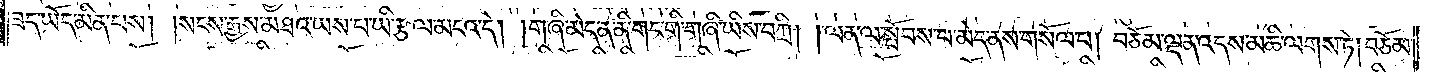ཟད་ཡོད་མིན་པས། །སངས་རྒྱས་མཐའ་ཡས་པ་ཡི་རྩལ་མངའ་དེ། །གཞི་མེད་ན་ནི་གང་གི་གཞི་ཡིས་བཀྲི། །ལན་ལ་སྤོབས་པ་མེད་ནས་གསོལ་པ། བཅོམ་ལྡན་འདས་མཆི་ལགས་ཏེ། བཅོམ་
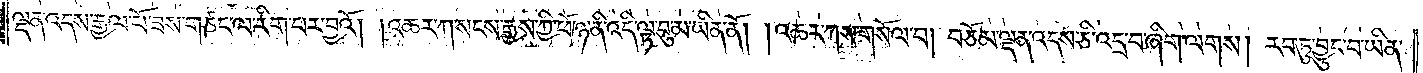ལྡན་འདས་རྒྱལ་པོ་ཟས་གཙང་ལ་རིག་པར་བྱའོ། །འཆར་ཀ་སངས་རྒྱས་ཀྱི་ཕོ་ཉ་ནི་འདི་ལྟ་བུ་མ་ཡིན་ནོ། །འཆར་ཀས་གསོལ་པ། བཅོམ་ལྡན་འདས་ཅི་འདྲ་བ་ཞིག་ལགས། རབ་ཏུ་བྱུང་བ་ཡིན་
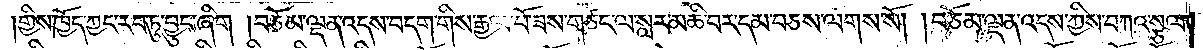གྱིས་ཁྱོད་ཀྱང་རབ་ཏུ་བྱུང་ཞིག །བཅོམ་ལྡན་འདས་བདག་གིས་རྒྱལ་པོ་ཟས་གཙང་ལ་སླར་མཆི་བར་དམ་བཅས་ལགས་སོ། །བཅོམ་ལྡན་འདས་ཀྱིས་བཀའ་སྩལ་
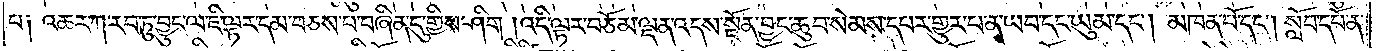པ༑ འཆར་ཀ་རབ་ཏུ་བྱུང་ལ་ཇི་ལྟར་དམ་བཅས་པ་བཞིན་དུ་གྱིས་ཤིག །འདི་ལྟར་བཅོམ་ལྡན་འདས་སྔོན་བྱང་ཆུབ་སེམས་དཔར་གྱུར་པ་ན་ཡབ་དང་ཡུམ་དང༌། མཁན་པོ་དང༌། སློབ་དཔོན་
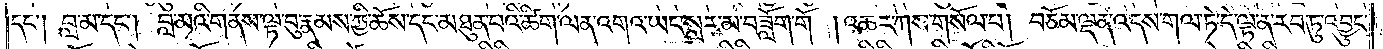དང༌། བླ་མ་དང༌། བླ་མའི་གནས་ལྟ་བུ་རྣམས་ཀྱི་ཆོས་དང་མཐུན་པའི་ཚིག་ལན་འགའ་ཡང་སླར་མ་བཟློག་གོ །འཆར་ཀས་གསོལ་པ། བཅོམ་ལྡན་འདས་གལ་ཏེ་དེ་ལྟ་ན་རབ་ཏུ་འབྱུང་
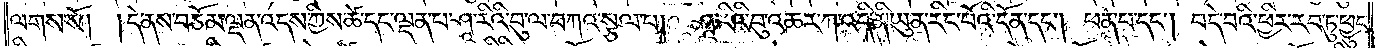ལགས་སོ། །དེ་ནས་བཅོམ་ལྡན་འདས་ཀྱིས་ཚེ་དང་ལྡན་པ་ཤཱ་རིའི་བུ་ལ་བཀའ་སྩལ་པ། ཤཱ་རིའི་བུ་འཆར་ཀ་འདི་ནི་ཡུན་རིང་པོའི་དོན་དང༌། ཕན་པ་དང༌། བདེ་བའི་ཕྱིར་རབ་ཏུ་ཕྱུང་
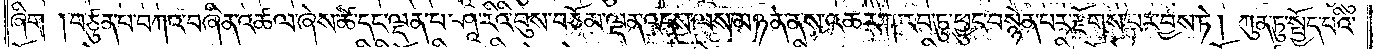ཞིག །བཙུན་པ་བཀའ་བཞིན་འཚལ་ཞེས་ཚེ་དང་ལྡན་པ་ཤཱ་རིའི་བུས་བཅོམ་ལྡན་འདས་ལས་མཉན་ནས་འཆར་ཀ་རབ་ཏུ་ཕྱུང་བསྙེན་པར་རྫོགས་པར་བྱས་ཏེ། ཀུན་ཏུ་སྤྱོད་པའི་
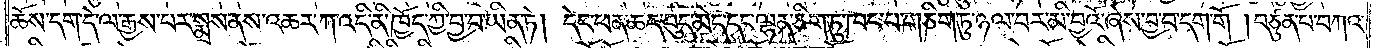ཆོས་དག་དེ་ལ་རྒྱས་པར་སྨྲས་ནས་འཆར་ཀ་འདི་ནི་ཁྱོད་ཀྱི་བྱ་བ་ཡིན་ཏེ། དེང་ཕན་ཆད་བུད་མེད་དང་ལྷན་ཅིག་ཏུ་ཁང་པ་གཅིག་ཏུ་ཉལ་བར་མི་བྱའོ་ཞེས་བྱ་བ་དག་གོ །བཙུན་པ་བཀའ་
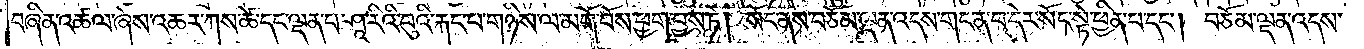བཞིན་འཚལ་ཞེས་འཆར་ཀས་ཚེ་དང་ལྡན་པ་ཤཱ་རིའི་བུའི་རྐང་པ་གཉིས་ལ་མགོ་བོས་ཕྱག་བྱས་ཏེ། སོང་ནས་བཅོམ་ལྡན་འདས་གང་ན་བ་དེར་སོང་སྟེ་ཕྱིན་པ་དང༌། བཅོམ་ལྡན་འདས་
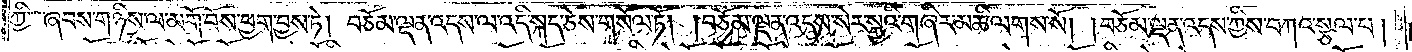ཀྱི་ཞབས་གཉིས་ལ་མགོ་བོས་ཕྱག་བྱས་ཏེ། བཅོམ་ལྡན་འདས་ལ་འདི་སྐད་ཅེས་གསོལ་ཏོ། །བཅོམ་ལྡན་འདས་སེར་སྐྱའི་གཞིར་མཆི་ལགས་སོ། །བཅོམ་ལྡན་འདས་ཀྱིས་བཀའ་སྩལ་པ།
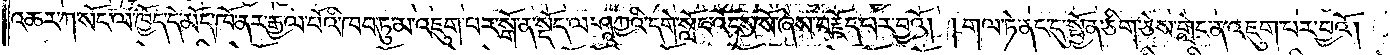འཆར་ཀ་སོང་ལ་ཁྱོད་དེ་མོད་ཁོ་ནར་རྒྱལ་པོའི་ཁབ་ཏུ་མ་འཇུག་པར་སྒོ་ན་སྡོད་ལ་ཤཱཀྱའི་དགེ་སློང་འོངས་སོ་ཞེས་བརྗོད་པར་བྱའོ། །གལ་ཏེ་ནང་དུ་སྤྱོན་ཅིག་ཅེས་གླེང་ན་འཇུག་པར་བྱའོ། །
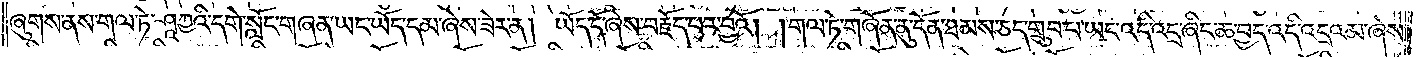ཞུགས་ནས་གལ་ཏེ་ཤཱཀྱའི་དགེ་སློང་གཞན་ཡང་ཡོད་དམ་ཞེས་ཟེར་ན། ཡོད་དོ་ཞེས་བརྗོད་པར་བྱའོ། །གལ་ཏེ་གཞོན་ནུ་དོན་ཐམས་ཅད་གྲུབ་པ་ཡང་འདི་འདྲ་ཞིང་ཆ་བྱད་འདི་འདྲའམ་ཞེས་
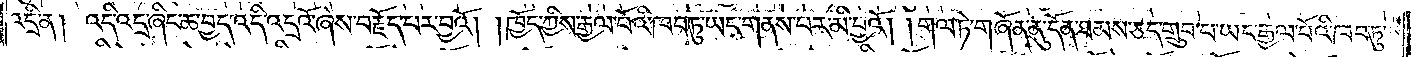འདྲི་ན། འདི་འདྲ་ཞིང་ཆ་བྱད་འདི་འདྲའོ་ཞེས་བརྗོད་པར་བྱའོ། །ཁྱོད་ཀྱིས་རྒྱལ་པོའི་ཁབ་ཏུ་ཡང་གནས་པར་མི་བྱའོ། །གལ་ཏེ་གཞོན་ནུ་དོན་ཐམས་ཅད་གྲུབ་པ་ཡང་རྒྱལ་པོའི་ཁབ་ཏུ་
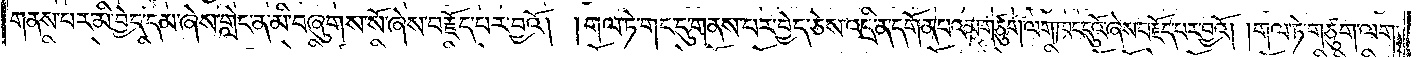གནས་པར་མི་བྱེད་དམ་ཞེས་གླེང་ན་མི་བཞུགས་སོ་ཞེས་བརྗོད་པར་བྱའོ། །གལ་ཏེ་གང་དུ་གནས་པར་བྱེད་ཅེས་འདྲི་ན་དགོན་པའམ་གཙུག་ལག་ཁང་དུའོ་ཞེས་བརྗོད་པར་བྱའོ། །གལ་ཏེ་གཙུག་ལག་
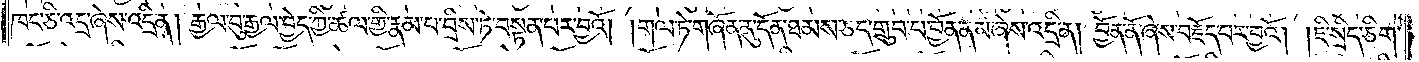ཁང་ཅི་འདྲ་ཞེས་འདྲི་ན། རྒྱལ་བུ་རྒྱལ་བྱེད་ཀྱི་ཚལ་གྱི་རྣམ་པ་བྲིས་ཏེ་བསྟན་པར་བྱའོ། །གལ་ཏེ་གཞོན་ནུ་དོན་ཐམས་ཅད་གྲུབ་པ་བྱོན་ནམ་ཞེས་འདྲི་ན། བྱོན་ནོ་ཞེས་བརྗོད་པར་བྱའོ། །ཇི་སྲིད་ཅིག་
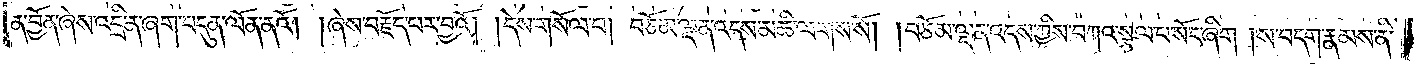ན་བྱོན་ཞེས་འདྲི་ན་ཞག་བདུན་ལོན་ནའོ། །ཞེས་བརྗོད་པར་བྱའོ། །དེས་གསོལ་པ། བཅོམ་ལྡན་འདས་མཆི་ལགས་སོ། །བཅོམ་ལྡན་འདས་ཀྱིས་བཀའ་སྩལ་པ་སོང་ཞིག །ས་བདག་རྣམས་ནི་
